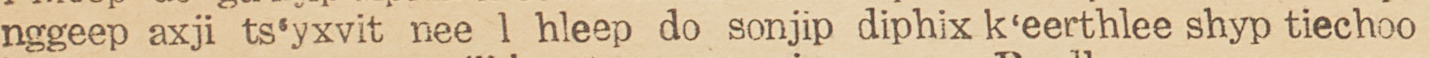nggeep axji ts'yxvit nee l hleep do sonjip diphix k'eerthlee shyp tiechoo
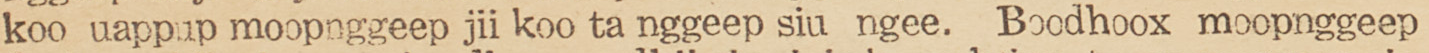koo uappup moopnggeep jii koo ta nggeep siu ngee. Boodhoox moognggeep
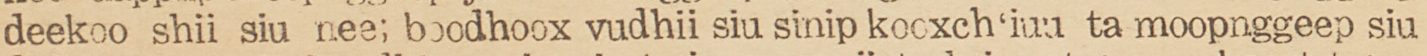deekoo shii siu nee; boodhoox vudhii siu sinip kooxch'iuu ta moopnggeep siu
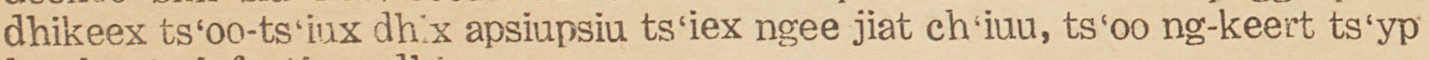dhikeex ts'oo-ts'iux dhix apsiupsiu ts'iex ngee jiat ch'iuu, ts'oo ng-keert ts'yp
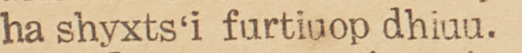ha shyxts'i furtiuop dhiuu.
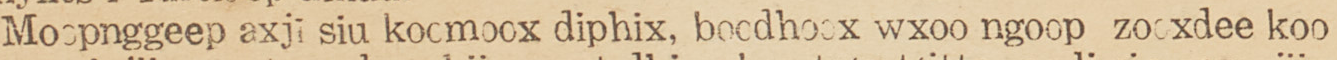Moopnggeep axji siu koomoox diphix, boodhoox wxoo ngoop zooxdee koo
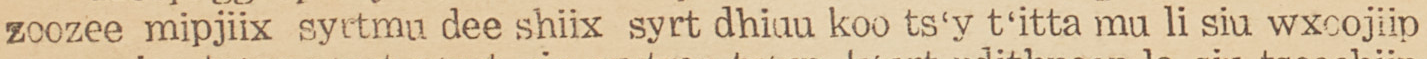zoozee mipjiix syrtmu dee shiix syrt dhiuu koo ts'y t'itta mu li siu wxoojiip
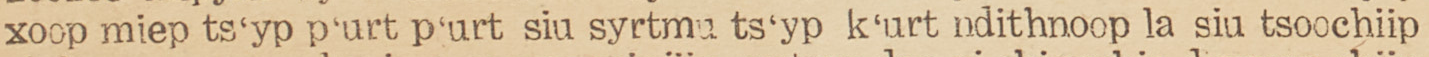xoop miep ts'yp p'urt p'urt siu syrtmu ts'yp k'urt ndithnoop la siu tsoochiip
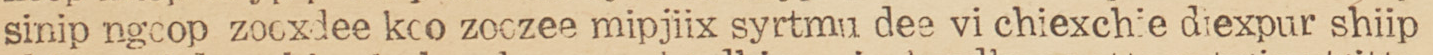sinip ngoop zooxdee koo zoozee mipjiix syrtmu dee vi chiexchie diexpur shiip
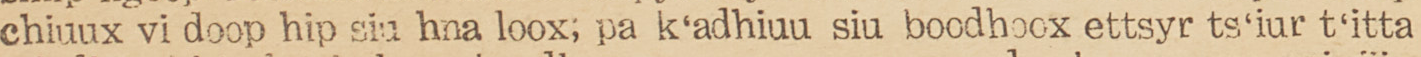chiuux vi doop hip siu hna loox; pa k'adhiuu siu boodhoox ettsyr ts'iur t'itta
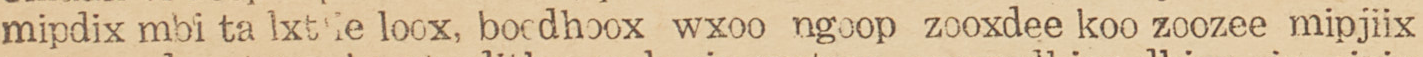mipdix mbi ta lxt'ie loox, boodhoox wxoo ngoop zooxdee koo zoozee mipjiix
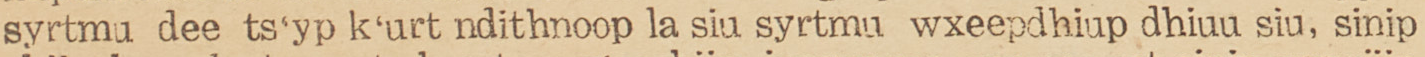syrtmu dee ts'yp k'urt ndithnoop la siu syrtmu wxeepdhiup dhiuu siu, sinip
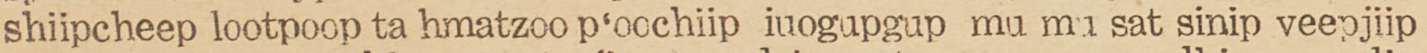shiipcheep lootpoop ta hmatzoo p'oochiip iuogupgup mu mu sat sinip veepjiip
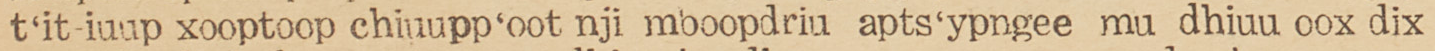t'it-iuup xooptoop chiuupp'oot nji mboopdriu apts'ypngee mu dhiuu oox dix
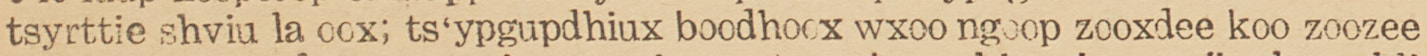tsyrttie shviu la oox; ts'ypgupdhiux boodhoox wxoo ngoop zooxdee koo zoozee
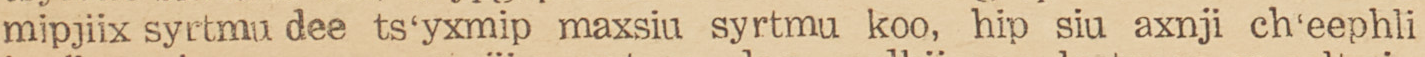mipjiix syrtmu dee ts'yxmip maxsui syrtmu koo, hip siu axnji ch'eephli
